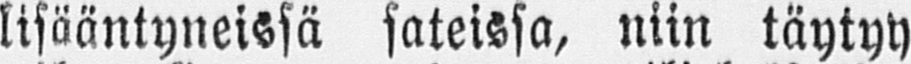lisääntyneissä sateissa, niin täytyy
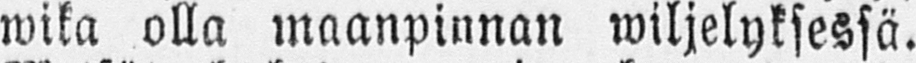wika olla maanpinnan wiljelyksessä.
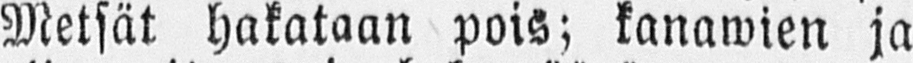Metsät hakataan pois; kanawien ja
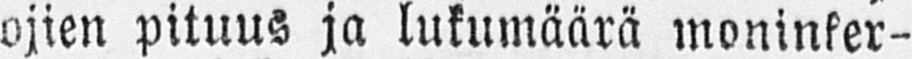ojien pituus ja lukumäärä moninker-
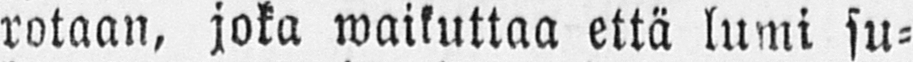rotaan, joka waikuttaa että lumi su-
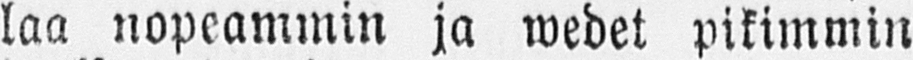laa nopeammin ja wedet pikimmin
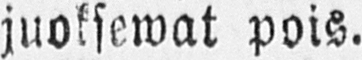juoksewat pois.
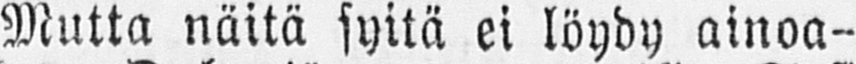Mutta näitä syitä ei löydy ainoa-
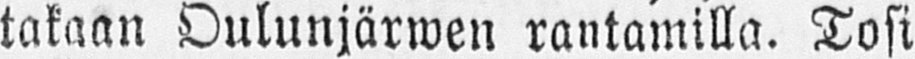takaan Oulunjärwen rantamilla. Tosi
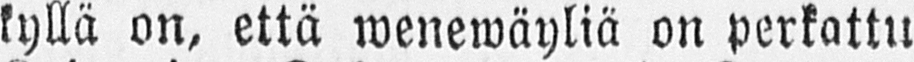kyllä on, että wenewäyliä on perkattu
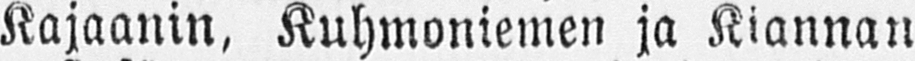Kajaanin, Kuhmoniemen ja Kiannan
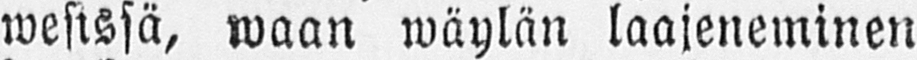wesissä, waan wäylän laajeneminen
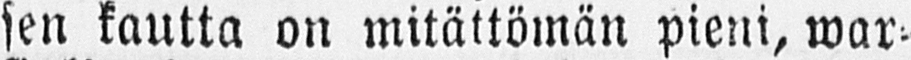sen kautta on mitättömän pieni, war-
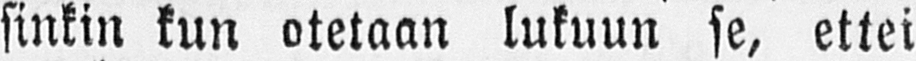sinkin kun otetaan lukuun se, ettei
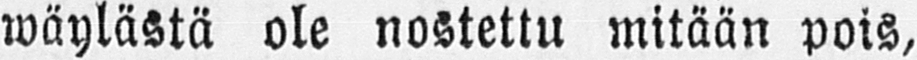wäylästä ole nostettu mitään pois,
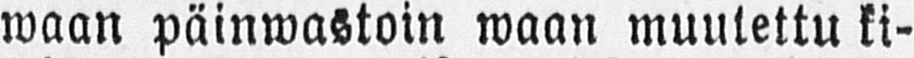waan päinwastoin waan muutettu ki-
